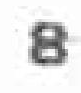8
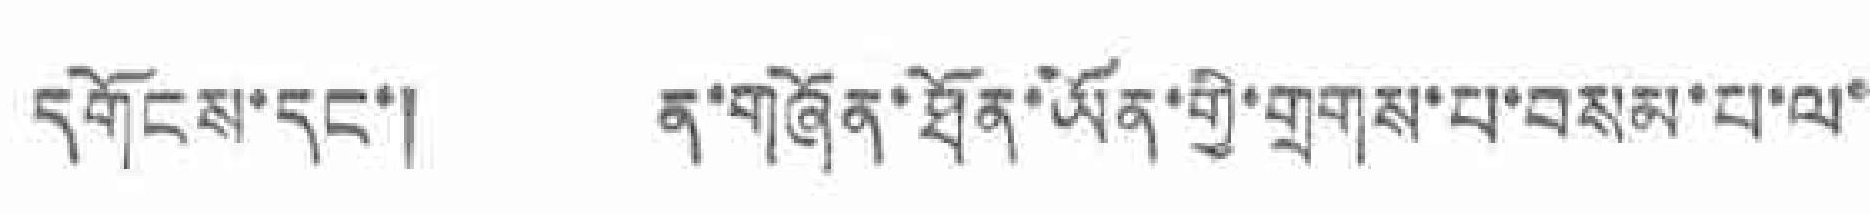དགོངས་དང་། ན་གཞོན་ཐོན་ཡོན་གྱི་གྲགས་པ་བསམ་པ་ལ་
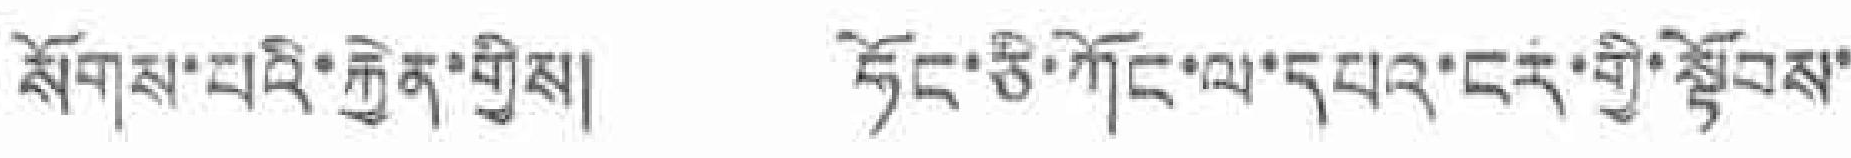སོགས་པའི་རྐྱེན་གྱིས།། ཧོང་ཧི་ཀོང་ལ་དཔའ་ངར་གྱི་སྟོབས་
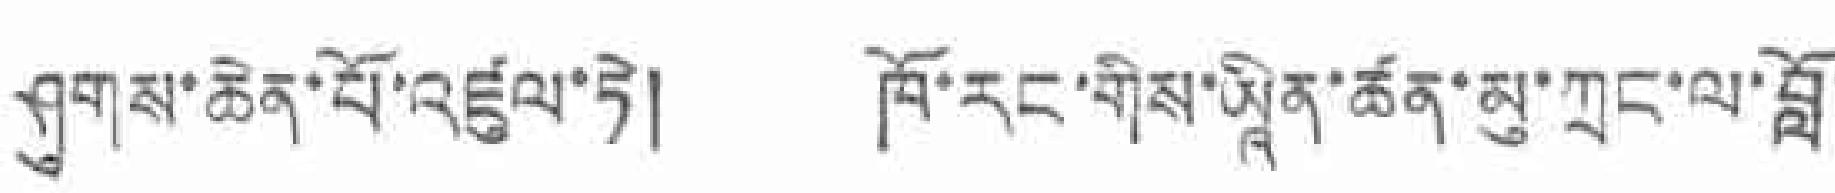ཤུགས་ཆེན་པོ་འཛུལ་ཏེ། ཁོ་རང་གིས་ཡཱིན་ཚན་མུ་ཀྲང་ལ་བློ་
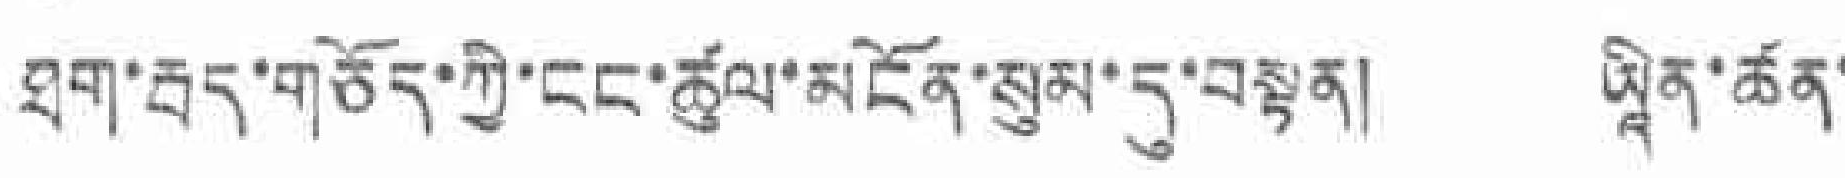ཐག་རྦད་གཅོད་ཀྱི་ངང་ཚུལ་མངོན་སུམ་དུ་བསྟུན། ཡཱིན་ཚན་
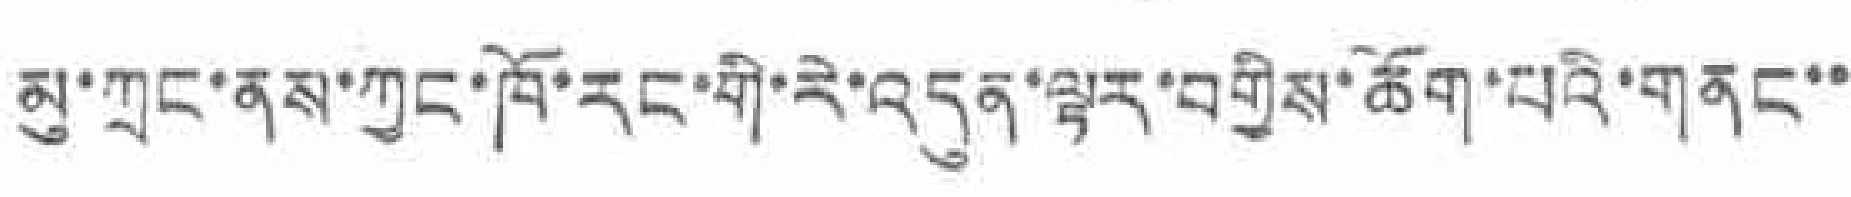མུ་ཀྲང་ནས་ཀྱང་ཁོ་རང་གི་རེ་འདུན་ལྟར་བགྱིས་ཆོག་པའི་གནང་་
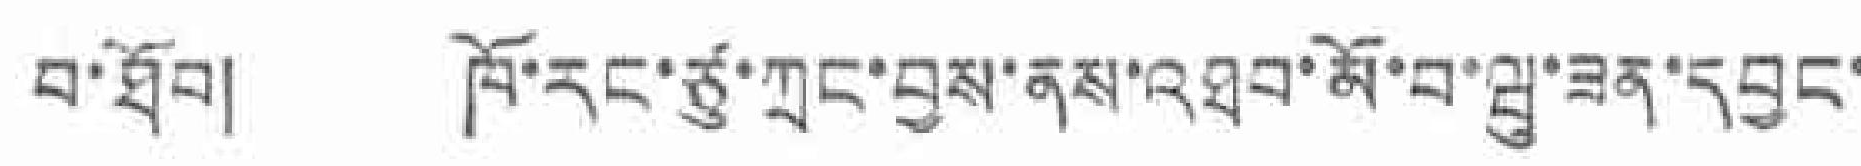བ་ཐོབ། ཁོ་རང་ཙུ་ཀྲང་བྱས་ནས་འཐབ་མོ་བ་ཝུ་ཟན་དབྱང་
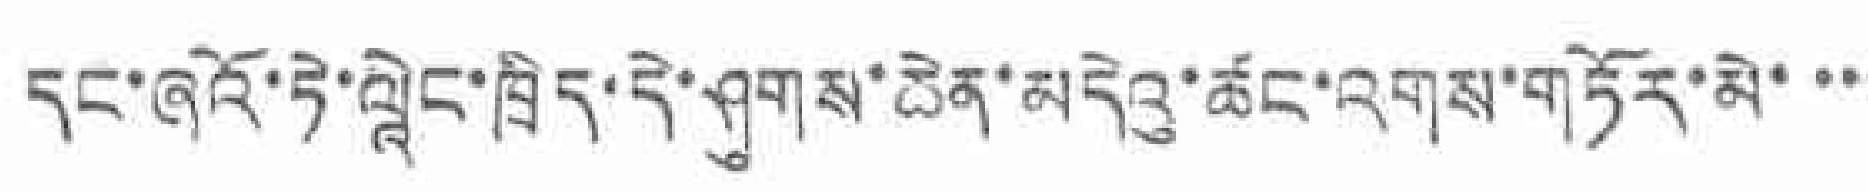དང་ཞའོ་ཏེ་ལཱེང་ཁྲིད་དེ་ཤུགས་ཆེན་མདེའུ་ཚང་འགས་གཏོར་མེ་་་
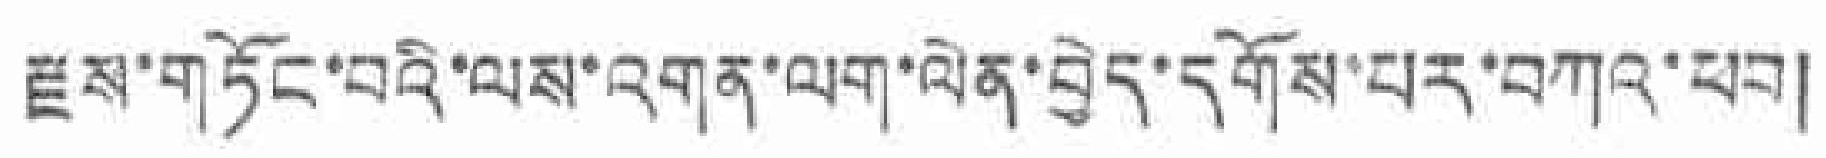རྫས་གཏོང་བའི་ལས་འགན་ལག་ལེན་བྱེད་དགོས་པར་བཀའ་ཕབ།
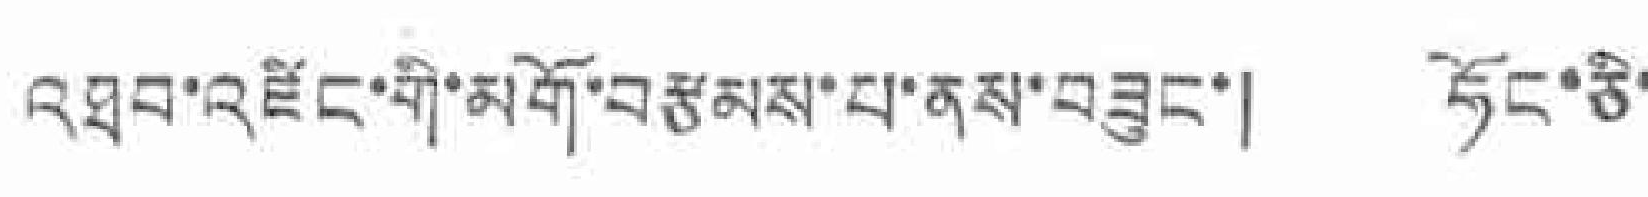འཐབ་འཛིང་གི་མགོ་བརྩམས་པ་ནས་བཟུང་། ཧོང་ཅི་
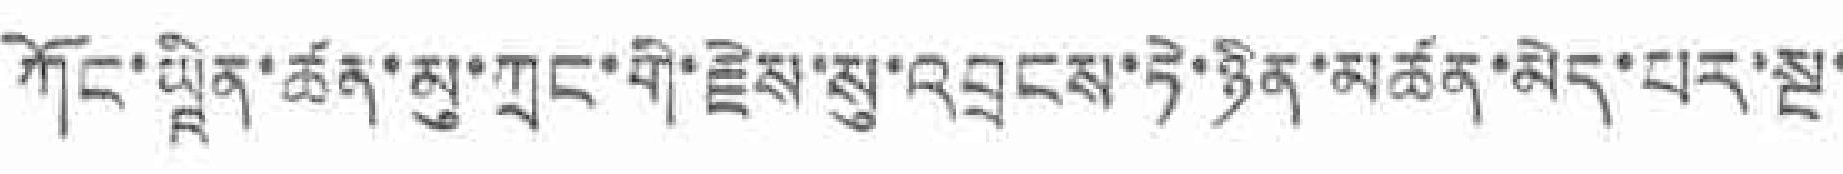ཀོང་ཡཱིན་ཚན་མུ་ཀྲང་གི་རྗེས་སུ་འབྲངས་ཏེ་ཉིན་མཚན་མེད་པར་སྔ་
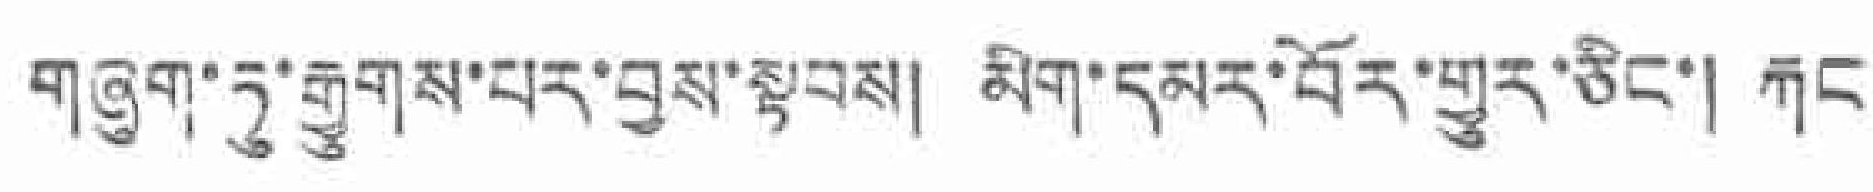གཞུག་ཏུ་རྒྱུགས་པར་བྱས་སྟབས། མིག་དམར་བོར་གྱུར་ཅིང་། རྐང
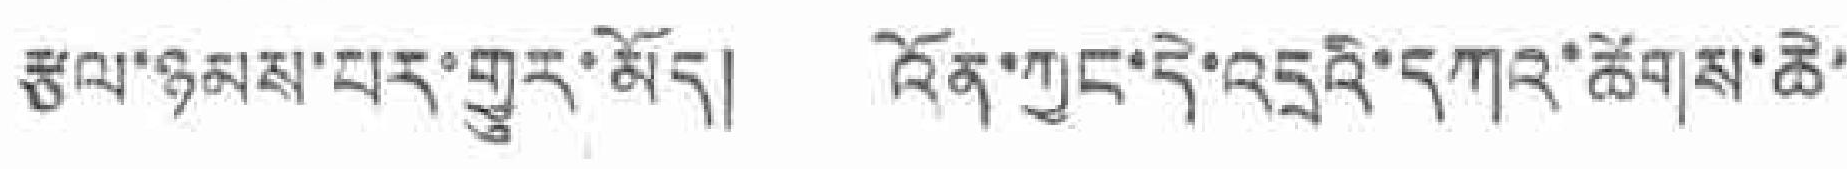རྩལ་ཉམས་པར་གྱུར་མོད། འོན་ཀྱང་དེ་འདྲའི་དཀའ་ཚེགས་ཆེ་
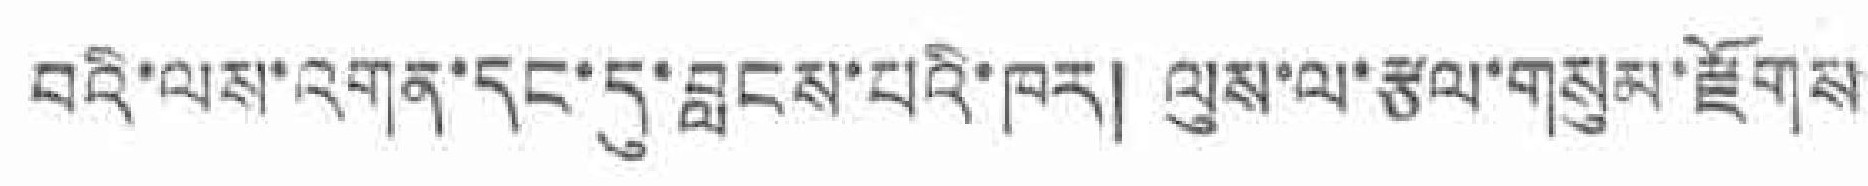བའི་ལས་འགན་དང་དུ་བླངས་པའི་ཁར། ལུས་ལ་རྩལ་གསུམ་རྫོགས
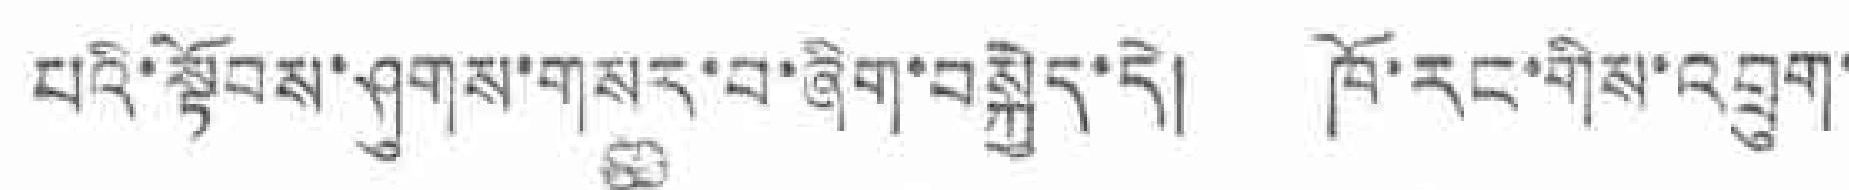པའི་སྟོབས་ཤུགས་གསར་བ་ཞིག་བསྐྱེད་དེ། ཁོ་རང་གིས་འབྲུག་
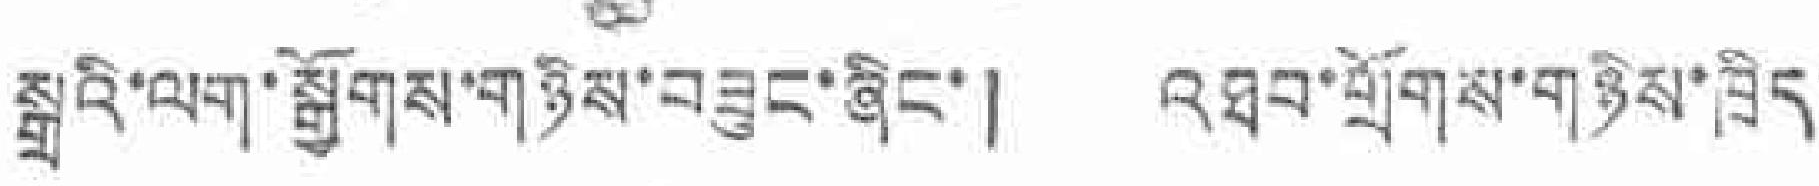སྒྲའི་ལག་སྒྱོགས་གཉིས་བཟུང་ཞིང་། འཐབ་གྲོགས་གཉིས་ཁྲིད་
